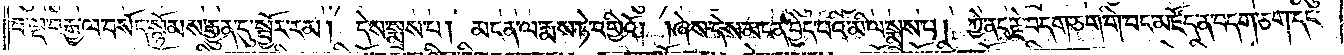བ་ལྔ་བརྒྱ་ལ་བསོད་སྙོམས་རྒྱུན་དུ་སྦྱོར་རམ། དེས་སྨྲས་པ། མངན་ལ་རྨས་ཏེ་བགྱིའོ། །ཞེས་དེས་མངན་བྱེད་པའི་མི་ལ་སྨྲས་པ། ཀྱེ་ནང་རྗེ་བདག་ཅག་གི་བང་མཛོད་ན་བདག་ཅག་དང་
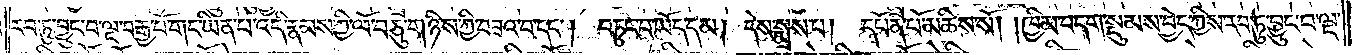རབ་ཏུ་བྱུང་བ་ལྔ་བརྒྱ་པོ་གང་ཡིན་པ་འདི་རྣམས་ཀྱི་ལོ་བཅུ་གཉིས་ཀྱི་བཟའ་བ་དང༌། བཏུང་བ་ཡོད་དམ། དེས་སྨྲས་པ། དཔོན་པོ་མཆིས་སོ། །ཁྱིམ་བདག་སྡུམས་བྱེད་ཀྱིས་རབ་ཏུ་བྱུང་བ་ལྔ་
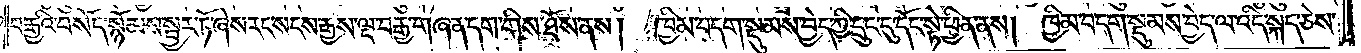བརྒྱའི་བསོད་སྙོམས་སྦྱར་ཏོ་ཞེས་རང་སངས་རྒྱས་ལྔ་བརྒྱ་གཞན་དག་གིས་ཐོས་ནས། ཁྱིམ་བདག་སྡུམས་བྱེད་ཀྱི་དྲུང་དུ་དོང་སྟེ་ཕྱིན་ནས། ཁྱིམ་བདག་སྡུམས་བྱེད་ལ་འདི་སྐད་ཅེས་
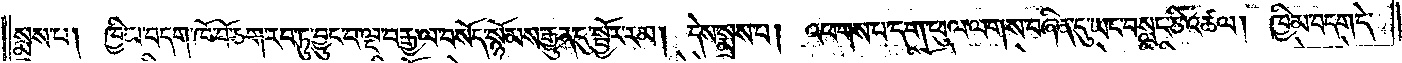སྨྲས་པ། ཁྱིམ་བདག་ཁོ་བོ་ཅག་རབ་ཏུ་བྱུང་བ་ལྔ་བརྒྱ་ལ་བསོད་སྙོམས་རྒྱུན་དུ་སྦྱོར་རམ། དེས་སྨྲས་པ། འཕགས་པ་དག་ཕུལ་ལགས་བཞིན་དུ་ཡང་བསླང་ཅི་འཚལ། ཁྱིམ་བདག་དེ་
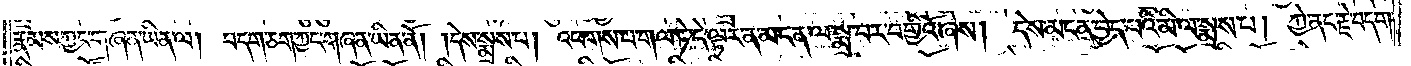རྣམས་ཀྱང་གཞན་ཡིན་ལ། བདག་ཅག་ཀྱང་གཞན་ཡིན་ནོ། །དེས་སྨྲས་པ། འཕགས་པ་གལ་ཏེ་དེ་ལྟར་ན་མངན་ལ་སྨྲ་བར་བགྱིའོ་ཞེས། དེས་མངན་བྱེད་པའི་མི་ལ་སྨྲས་པ། ཀྱེ་ནང་རྗེ་བདག་
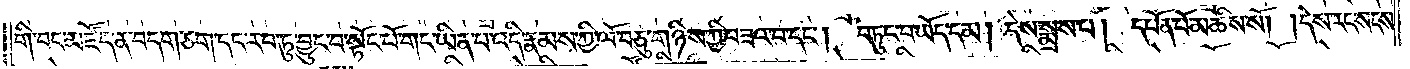གི་བང་མཛོད་ན་བདག་ཅག་དང་རབ་ཏུ་བྱུང་བ་སྟོང་པོ་གང་ཡིན་པ་འདི་རྣམས་ཀྱི་ལོ་བཅུ་གཉིས་ཀྱི་བཟའ་བ་དང༌། བཏུང་བ་ཡོད་དམ། དེས་སྨྲས་པ། དཔོན་པོ་མཆིས་སོ། །དེས་རང་སངས་
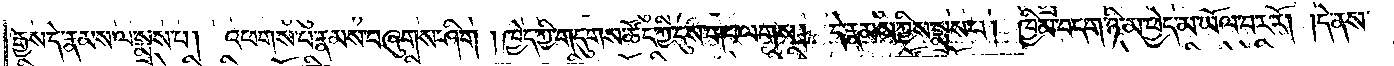རྒྱས་དེ་རྣམས་ལ་སྨྲས་པ། འཕགས་པ་རྣམས་བཞུགས་ཤིག །ཁྱེད་ཀྱི་གདུགས་ཚོད་ཀྱི་དུས་གང་ལགས། དེ་རྣམས་ཀྱིས་སྨྲས་པ། ཁྱིམ་བདག་ཉི་མ་ཕྱེད་མ་ཡོལ་བར་རོ། །དེ་ནས་
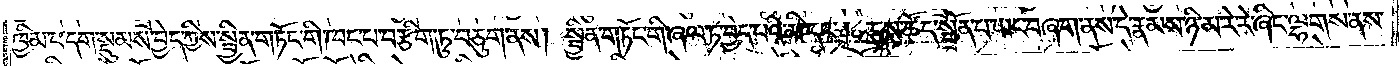ཁྱིམ་བདག་སྡུམས་བྱེད་ཀྱིས་སྦྱིན་གཏོང་གི་ཁང་པ་བརྩིག་ཏུ་བཅུག་ནས། སྦྱིན་གཏོང་གི་ཞལ་ཏ་བྱེད་པའི་མི་དང༌། དུས་ཚོད་སྦྲོན་པ་ཡང་བཞག་ནས་དེ་རྣམས་ཉི་མ་རེ་རེ་ཞིང་ལྷགས་ནས་
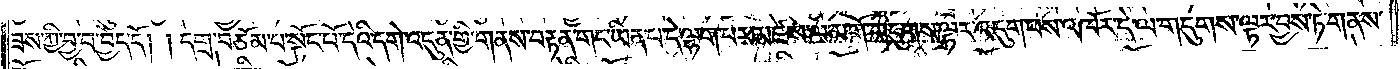ཟས་ཀྱི་བྱ་བ་བྱེད་དོ། །དགྲ་བཅོམ་པ་སྟོང་པོ་དེའི་དགེ་འདུན་གྱི་གནས་བརྟན་གང་ཡིན་པ་དེ་ལྷག་པར་མཛེས་ལ་མགོ་གདུགས་ལྟར་འདུག་པས་འཁོར་དེ་ལ་གདུགས་ལྟར་བྱས་ཏེ་གནས་
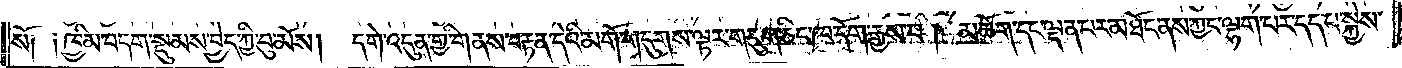སོ༑ ༑ཁྱིམ་བདག་སྡུམས་བྱེད་ཀྱི་བུ་མོས། དགེ་འདུན་གྱི་གནས་བརྟན་དེའི་མགོ་གདུགས་ལྟར་གདུག་ཅིང་ཁ་དོག་རྒྱས་པ། མཆོག་དང་ལྡན་པར་མཐོང་ནས་ཀྱང་ལྷག་པར་དད་པ་སྐྱེས་
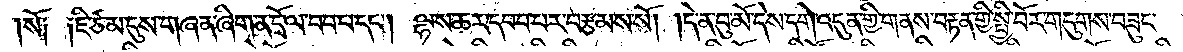སོ། །ཇི་ཙམ་དུས་གཞན་ཞིག་ན་དྲོ་ལ་བབ་པ་དང༌། ལྷས་ཆར་དབབ་པར་བརྩམས་སོ། །དེ་ན་བུ་མོ་དེས་དགེ་འདུན་གྱི་གནས་བརྟན་གྱི་སྤྱི་བོར་གདུགས་བཟུང་
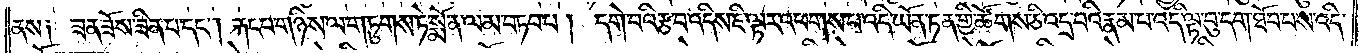ནས། ཟན་ཟོས་ཟིན་པ་དང༌། རྐང་པ་གཉིས་ལ་གཏུགས་ཏེ་སྨོན་ལམ་བཏབ་པ། དགེ་བའི་རྩ་བ་འདིས་ཇི་ལྟར་འཕགས་པ་འདི་ཡོན་ཏན་གྱི་ཚོགས་ཅི་འདྲ་བའི་རྣམ་པ་འདི་ལྟ་བུ་དག་ཐོབ་པས་འདི་
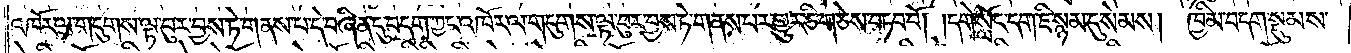འཁོར་ལ་གདུགས་ལྟ་བུར་བྱས་ཏེ་གནས་པ་དེ་བཞིན་དུ་བདག་ཀྱང་འཁོར་ལ་གདུགས་ལྟ་བུར་བྱས་ཏེ་གནས་པར་གྱུར་ཅིག་ཅེས་བཏབ་བོ། །དགེ་སློང་དག་ཇི་སྙམ་དུ་སེམས། ཁྱིམ་བདག་སྡུམས་
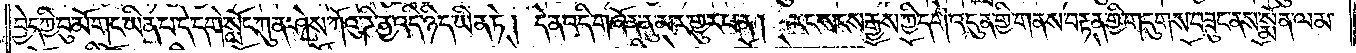བྱེད་ཀྱི་བུ་མོ་གང་ཡིན་པ་དེ་དགེ་སློང་ཀུན་ཤེས་ཀོའུ་ཌི་ནྱ་འདི་ཉིད་ཡིན་ཏེ། དེ་ན་འདི་གཞོན་ནུ་མར་གྱུར་པ་ན། རང་སངས་རྒྱས་ཀྱི་དགེ་འདུན་གྱི་གནས་བརྟན་གྱི་གདུགས་བཟུང་ནས་སྨོན་ལམ་
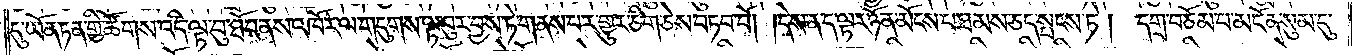དུ་ཡོན་ཏན་གྱི་ཚོགས་འདི་ལྟ་བུ་ཐོབ་ནས་འཁོར་ལ་གདུགས་ལྟ་བུར་བྱས་ཏེ་གནས་པར་གྱུར་ཅིག་ཅེས་བཏབ་བོ། །དེས་ན་ད་ལྟར་ཉོན་མོངས་པ་ཐམས་ཅད་སྤངས་ཏེ། དགྲ་བཅོམ་པ་མངོན་སུམ་དུ་
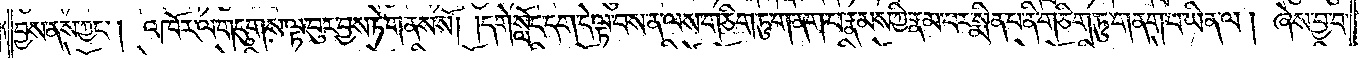བྱས་ནས་ཀྱང༌། འཁོར་ལ་གདུགས་ལྟ་བུར་བྱས་ཏེ་གནས་སོ། །དགེ་སློང་དག་དེ་ལྟ་བས་ན་ལས་གཅིག་ཏུ་གནག་པ་རྣམས་ཀྱི་རྣམ་པར་སྨིན་པ་ནི་གཅིག་ཏུ་གནག་པ་ཡིན་ལ། ཞེས་བྱ་བ་
